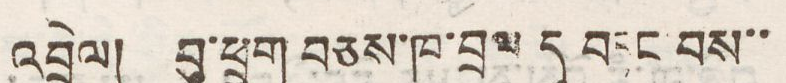འབྲེལ། བུ་ཕྲུག བཅས་ཁ་བྲལ དུ བཏང བས་་
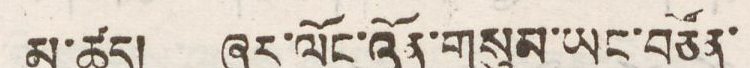མ་ཚད། ཞར་ལོང་འོན་གསུམ་ཡང་བཙོན་
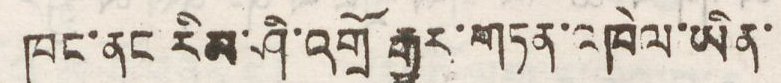ཁང་ནང རིམ་ཤི་འགྲོ་རྒྱུར་གཏན་འཁེལ་ཡིན་
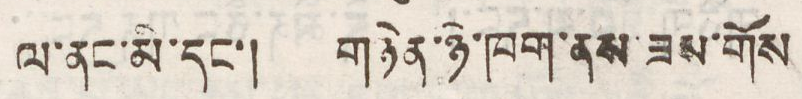ལ་ནང་མི་དང་། གཉེན་ཉེ་ཁག་ནས་ཟས་གོས
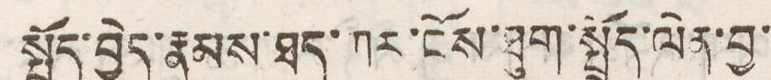སྤྲོད་བྱེད་རྣམས་ཐད་ཀར་ངོས་ཐུག་སྤྲོད་ལེན་བྱ་
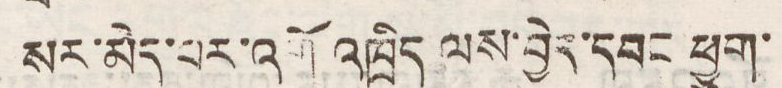སར་མེད་པར་འགོ འཁྲིད ལས་བྱེད་དབང ཕྱུག་
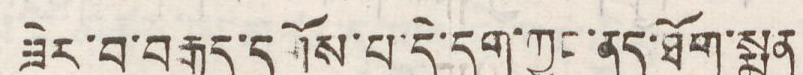ཟེར་བ་བརྒྱུད་དགོས་པ་དེ་དག་ཀྱང་ནད་ཐོག་སྨན
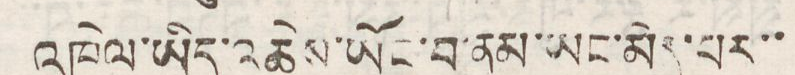འཁེལ་ཡིད་འཆེས་ཡོང་བ་ནམ་ཡང་མེད་པར་་
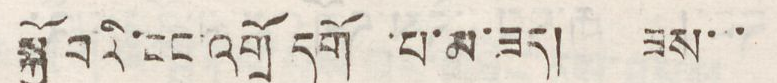སྐྱོ བའི་ངང་འགྲོ དགོ ་པ་མ་ཟད། ཟས་་
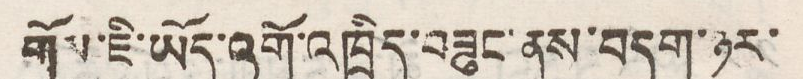གོས་ཇི་ཡོད་འགོ་འཁྲིད་བཟུང་ནས་བདག་ཉར་
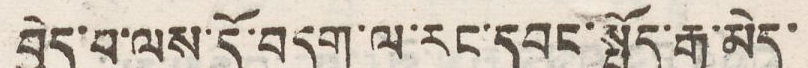བྱེད་པ་ལས་དོ་བདག་ལ་རང་དབང་སྤྱོད་རྒྱུ་མེད་
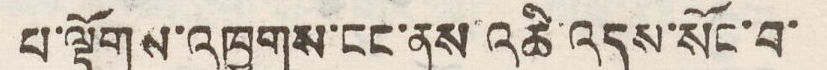པ་ལྟོགས་འཁྱགས་ངང་ནས་འཆི་འདས་སོང་བ་
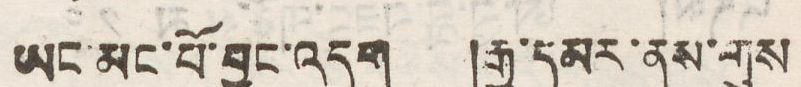ཡང་མང་པོ་བྱུང་འདུག །རྒྱ་དམར་ནས་གུས
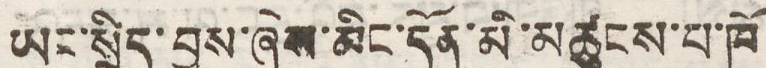ཡང་སྲིད་བྱུས་ཆེས་མིང་དོན་མི་མཚུངས་པ་ཁོ
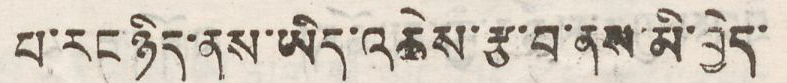པ་རང་ཉིད་ནས་ཡིད་འཆེས་རྩ་བ་ནས་མི་བྱེད་
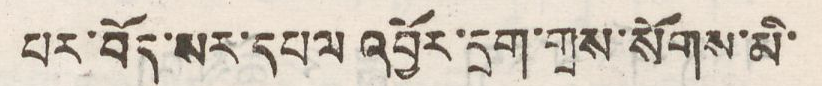པར་བོད་སར་དཔལ འབྱོར་དྲག་གྲས་སོགས་མི་
